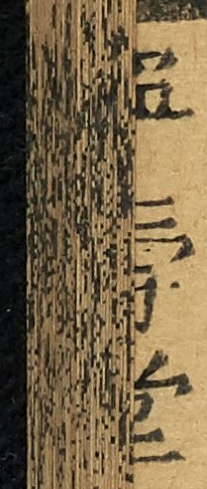寧壽堂
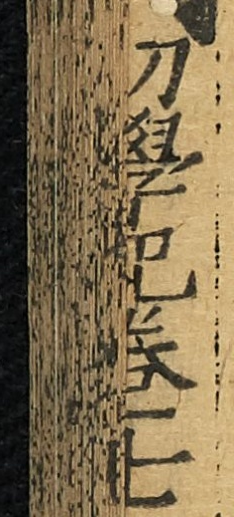初學記卷七
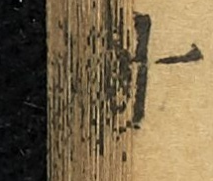十
